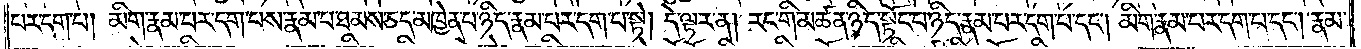པར་དག་པ། མིག་རྣམ་པར་དག་པས་རྣམ་པ་ཐམས་ཅད་མཁྱེན་པ་ཉིད་རྣམ་པར་དག་པ་སྟེ། དེ་ལྟར་ན། རང་གི་མཚན་ཉིད་སྟོང་པ་ཉིད་རྣམ་པར་དག་པ་དང༌། མིག་རྣམ་པར་དག་པ་དང༌། རྣམ་
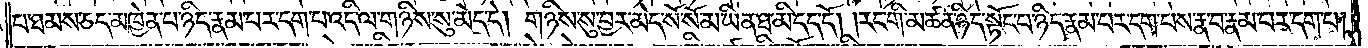པ་ཐམས་ཅད་མཁྱེན་པ་ཉིད་རྣམ་པར་དག་པ་འདི་ལ་གཉིས་སུ་མེད་དེ། གཉིས་སུ་བྱར་མེད་སོ་སོ་མ་ཡིན་ཐ་མི་དད་དོ། །རང་གི་མཚན་ཉིད་སྟོང་པ་ཉིད་རྣམ་པར་དག་པས་རྣ་བ་རྣམ་པར་དག་པ།
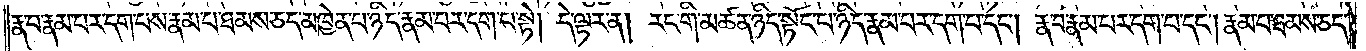རྣ་བ་རྣམ་པར་དག་པས་རྣམ་པ་ཐམས་ཅད་མཁྱེན་པ་ཉིད་རྣམ་པར་དག་པ་སྟེ། དེ་ལྟར་ན། རང་གི་མཚན་ཉིད་སྟོང་པ་ཉིད་རྣམ་པར་དག་པ་དང༌། རྣ་བ་རྣམ་པར་དག་པ་དང༌། རྣམ་པ་ཐམས་ཅད་
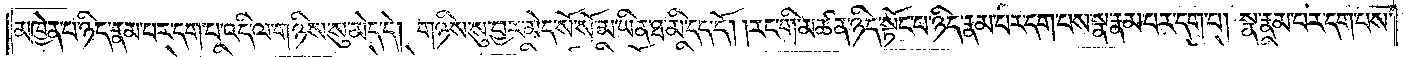མཁྱེན་པ་ཉིད་རྣམ་པར་དག་པ་འདི་ལ་གཉིས་སུ་མེད་དེ། གཉིས་སུ་བྱར་མེད་སོ་སོ་མ་ཡིན་ཐ་མི་དད་དོ། །རང་གི་མཚན་ཉིད་སྟོང་པ་ཉིད་རྣམ་པར་དག་པས་སྣ་རྣམ་པར་དག་པ། སྣ་རྣམ་པར་དག་པས་
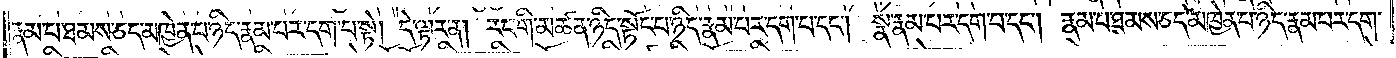རྣམ་པ་ཐམས་ཅད་མཁྱེན་པ་ཉིད་རྣམ་པར་དག་པ་སྟེ། དེ་ལྟར་ན། རང་གི་མཚན་ཉིད་སྟོང་པ་ཉིད་རྣམ་པར་དག་པ་དང༌། སྣ་རྣམ་པར་དག་པ་དང༌། རྣམ་པ་ཐམས་ཅད་མཁྱེན་པ་ཉིད་རྣམ་པར་དག་
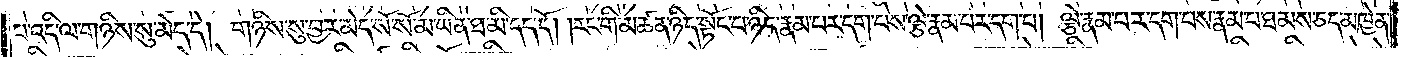པ་འདི་ལ་གཉིས་སུ་མེད་དེ། གཉིས་སུ་བྱར་མེད་སོ་སོ་མ་ཡིན་ཐ་མི་དད་དོ། །རང་གི་མཚན་ཉིད་སྟོང་པ་ཉིད་རྣམ་པར་དག་པས་ལྕེ་རྣམ་པར་དག་པ། ལྕེ་རྣམ་པར་དག་པས་རྣམ་པ་ཐམས་ཅད་མཁྱེན་
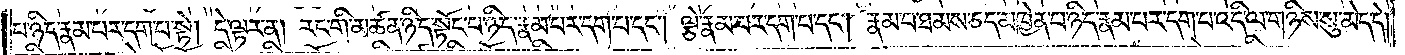པ་ཉིད་རྣམ་པར་དག་པ་སྟེ། དེ་ལྟར་ན། རང་གི་མཚན་ཉིད་སྟོང་པ་ཉིད་རྣམ་པར་དག་པ་དང༌། ལྕེ་རྣམ་པར་དག་པ་དང༌། རྣམ་པ་ཐམས་ཅད་མཁྱེན་པ་ཉིད་རྣམ་པར་དག་པ་འདི་ལ་གཉིས་སུ་མེད་དེ།
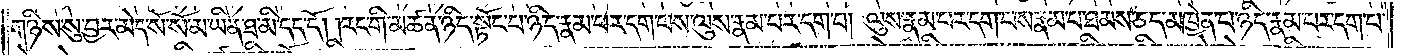གཉིས་སུ་བྱར་མེད་སོ་སོ་མ་ཡིན་ཐ་མི་དད་དོ། །རང་གི་མཚན་ཉིད་སྟོང་པ་ཉིད་རྣམ་པར་དག་པས་ལུས་རྣམ་པར་དག་པ། ལུས་རྣམ་པར་དག་པས་རྣམ་པ་ཐམས་ཅད་མཁྱེན་པ་ཉིད་རྣམ་པར་དག་པ་
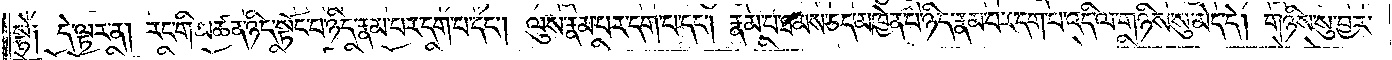སྟེ༑ དེ་ལྟར་ན། རང་གི་མཚན་ཉིད་སྟོང་པ་ཉིད་རྣམ་པར་དག་པ་དང༌། ལུས་རྣམ་པར་དག་པ་དང༌། རྣམ་པ་ཐམས་ཅད་མཁྱེན་པ་ཉིད་རྣམ་པར་དག་པ་འདི་ལ་གཉིས་སུ་མེད་དེ། གཉིས་སུ་བྱར་
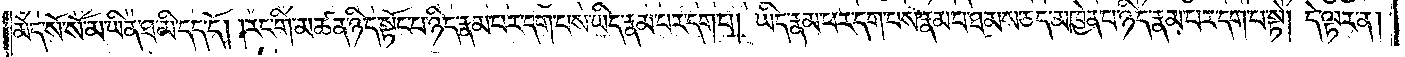མེད་སོ་སོ་མ་ཡིན་ཐ་མི་དད་དོ། །རང་གི་མཚན་ཉིད་སྟོང་པ་ཉིད་རྣམ་པར་དག་པས་ཡིད་རྣམ་པར་དག་པ། ཡིད་རྣམ་པར་དག་པས་རྣམ་པ་ཐམས་ཅད་མཁྱེན་པ་ཉིད་རྣམ་པར་དག་པ་སྟེ། དེ་ལྟར་ན།
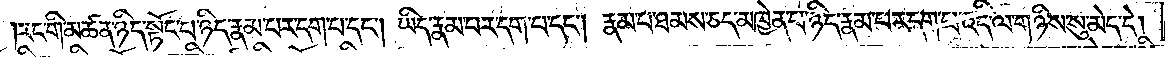རང་གི་མཚན་ཉིད་སྟོང་པ་ཉིད་རྣམ་པར་དག་པ་དང༌། ཡིད་རྣམ་པར་དག་པ་དང༌། རྣམ་པ་ཐམས་ཅད་མཁྱེན་པ་ཉིད་རྣམ་པར་དག་པ་འདི་ལ་གཉིས་སུ་མེད་དེ།
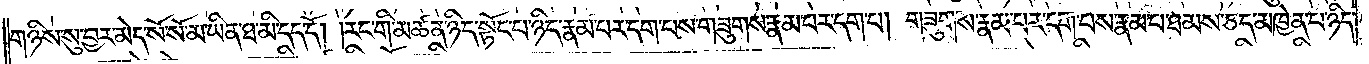གཉིས་སུ་བྱར་མེད་སོ་སོ་མ་ཡིན་ཐ་མི་དད་དོ། །རང་གི་མཚན་ཉིད་སྟོང་པ་ཉིད་རྣམ་པར་དག་པས་གཟུགས་རྣམ་པར་དག་པ། གཟུགས་རྣམ་པར་དག་པས་རྣམ་པ་ཐམས་ཅད་མཁྱེན་པ་ཉིད་
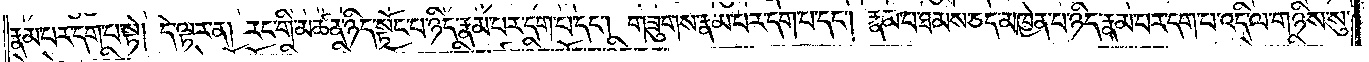རྣམ་པར་དག་པ་སྟེ། དེ་ལྟར་ན། རང་གི་མཚན་ཉིད་སྟོང་པ་ཉིད་རྣམ་པར་དག་པ་དང༌། གཟུགས་རྣམ་པར་དག་པ་དང༌། རྣམ་པ་ཐམས་ཅད་མཁྱེན་པ་ཉིད་རྣམ་པར་དག་པ་འདི་ལ་གཉིས་སུ་
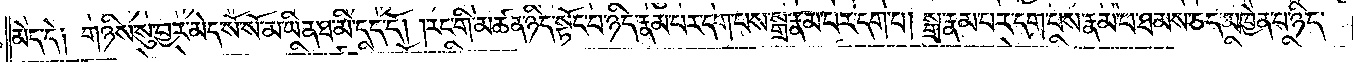མེད་དེ༑ གཉིས་སུ་བྱར་མེད་སོ་སོ་མ་ཡིན་ཐ་མི་དད་དོ། །རང་གི་མཚན་ཉིད་སྟོང་པ་ཉིད་རྣམ་པར་དག་པས་སྒྲ་རྣམ་པར་དག་པ། སྒྲ་རྣམ་པར་དག་པས་རྣམ་པ་ཐམས་ཅད་མཁྱེན་པ་ཉིད་
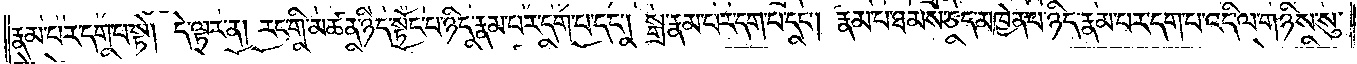རྣམ་པར་དག་པ་སྟེ། དེ་ལྟར་ན། རང་གི་མཚན་ཉིད་སྟོང་པ་ཉིད་རྣམ་པར་དག་པ་དང༌། སྒྲ་རྣམ་པར་དག་པ་དང༌། རྣམ་པ་ཐམས་ཅད་མཁྱེན་པ་ཉིད་རྣམ་པར་དག་པ་འདི་ལ་གཉིས་སུ་
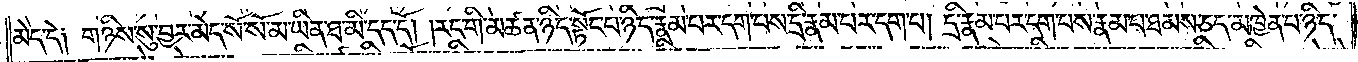མེད་དེ༑ གཉིས་སུ་བྱར་མེད་སོ་སོ་མ་ཡིན་ཐ་མི་དད་དོ། །རང་གི་མཚན་ཉིད་སྟོང་པ་ཉིད་རྣམ་པར་དག་པས་དྲི་རྣམ་པར་དག་པ། དྲི་རྣམ་པར་དག་པས་རྣམ་པ་ཐམས་ཅད་མཁྱེན་པ་ཉིད་
